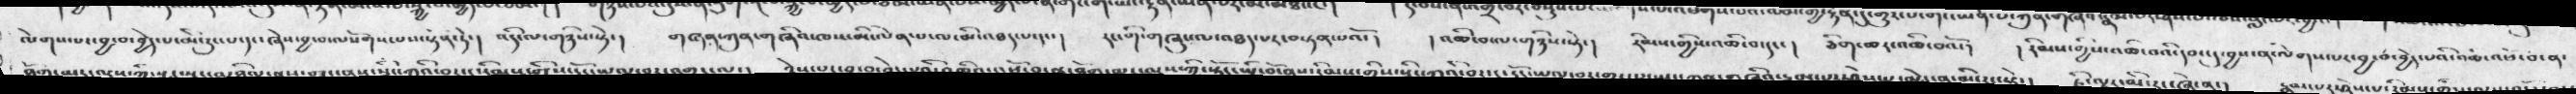ལེགས་པར་བྱ་བ་བྱེད་པ་མི་རུང་པ་དང་ཞེས་བྱ་བ་ལསོགས་པས་སྟོན་ཏེ་།  འདི་ལ་གཉིས་སྟེ་།  གཞན་གཞིའ་ཁས་མི་ལེན་པ་ལ་མི་འཐད་པ་དང་།  རང་གི་གཞུང་ལ་འཐད་པར་བསྟན་པའོ་།   ། འཆི་བ་ལ་གཉིས་སྟེ་།  རིམས་གྱིས་འཆི་བ་དང་།   ཅིག་ཆར་འཆི་བའོ་།  ། རིམས་གྱིས་འཆི་བའི་དབང་དུ་བྱས་ན་ལེགས་པར་བྱ་བ་བྱེད་པའི་འཆི་འཕོ་བ་ན་
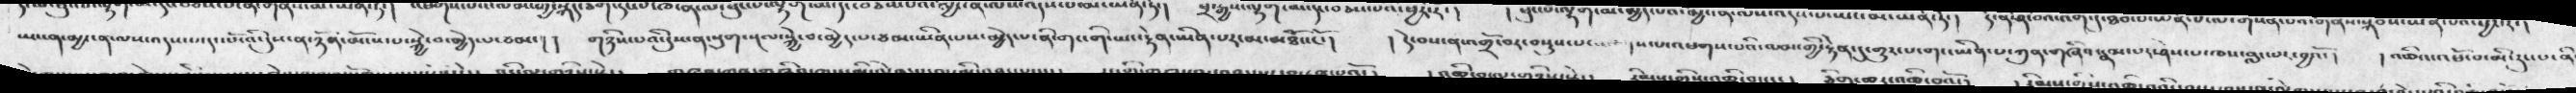ཡང་ན་མྱ་ངན་ལས་འདས་པ་དང་པོ་འི་དུས་ན་ཉོན་མོངས་པ་སྐྱེ་བ་མྱེད་པ་ཙམ་།   གཉིས་པའི་དུས་ན་སྡུག་སྔལ་སྐྱེ་བ་མྱེད་པ་ཙམ་ཡིན་པས་མྱེད་པ་ནི་གང་གི་ཡང་རྟེན་ཡིན་པར་མ་མཐོང་ང་ོ།   ། དེ་བས་ན་འགྲོ་བར་བསྡུས་པ་དང་འཕགས་པའི་ལམ་གྱི་རྟེན་དུ་གྱུར་པ་གང་ཡིན་པ་ཀུན་གཞིའ་རྣམ་པར་ཤེས་པ་ཁས་བླང་བར་བྱའོ་།  ། འཆི་འཕོ་བ་མི་རུང་པ་ནི་
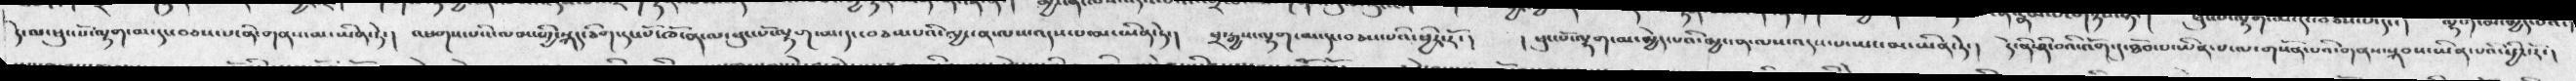་་ལ་ཕུང་པོ་ལྷག་མ་དང་བཅས་པ་ནི་གནས་མ་ཡིན་ཏེ་།  འཕགས་པའི་ལམ་གྱི་སྐད་ཅིག་དང་པོ་ཁོ་ན་ལ་ཕུང་པོ་ལྷག་མ་དང་བཅས་པའི་མྱ་ངན་ལས་འདས་པ་མ་ཡིན་ཏེ་།  ཕྲ་རྒྱས་ལྷག་མ་དང་བཅས་པའི་ཕྱིར་རོ་།   ། ཕུང་པོ་ལྷག་མ་མྱེད་པའི་མྱ་ངན་ལས་འདས་པ་ཡང་མ་ཡིན་ཏེ་།   དེ་ནི་ཤི་བའི་འོག་དུ་ཐོབ་པ་ཡིན་པ་ལ་གསོན་པའི་གནས་སྐབས་ཡིན་པའི་ཕྱིར་རོ་།
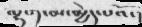ལྷ་༡་མ་མྱེད་པའོ་།
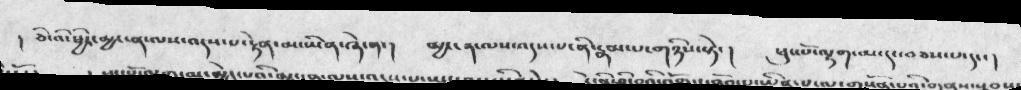། ཅི་འི་ཕྱིར་མྱ་ངན་ལས་འདས་པ་རྟེན་མ་ཡིན་ཞེ་ན་།   མྱ་ངན་ལས་འདས་པ་ནི་རྣམ་པ་གཉིས་སྟེ་།   ཕུང་པོ་ལྷག་མ་དང་བཅས་པ་དང་།
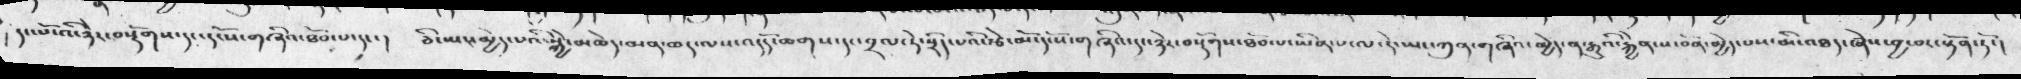། དང་པོ་འི་ཉེར་བསྡོགས་དང་དངོས་གཞིའ་ཐོབ་པ་དང་།  ཅི་ཡང་མྱེད་པའི་སྐྱེ་མཆེད་མན་ཆད་ལས་འདོད་ཆགས་དང་བྲལ་ཏེ་སྲིད་པའི་རྩེ་མོ་དངོས་གཞིའ་དང་ཉེར་བསྡོགས་ཐོབ་པ་ཡིན་པ་ལ་དེ་ཡང་ཀུན་གཞིའ་མྱེད་ན་རྒྱུའི་རྐྱེན་ས་བོན་མྱེད་པས་མི་འཐད་ཞེས་བྱ་བར་སྟོན་ཏོ་།
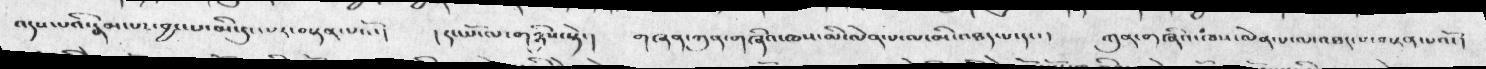འདས་པའི་རྣམ་པར་བྱང་པ་མི་དུང་པར་བསྟན་པའོ་།  ། དང་པོ་ལ་གཉིས་སྟེ་།  གཞན་ཀུན་གཞིའ་ཆས་མི་ལེན་པ་ལ་མི་འཐད་པ་དང་།  ཀུན་གཞིའ་ཁས་ལེན་པ་ལ་འཐད་པ་བསྟན་པའོ་།
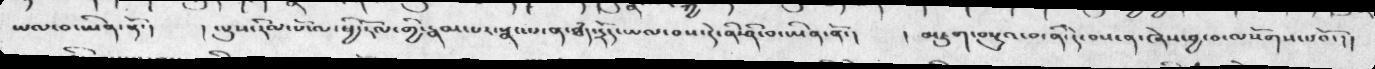ཡལ་བ་ཡིན་སྟོ་།  ། ལུས་རིམ་པོ་ལ་ཕྱི་རོལ་གྱི་རྣམ་པར་སྣང་པ་ན་ཐཾད་དྲོད་ཡལ་བས་དེ་ནི་ཤི་བ་ཡིན་ནོ་།  ། མཇུག་བསྡུའ་བ་ནི་དེ་བས་ན་ཞེས་བྱ་བ་ལསོགས་པའོ་།།
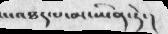ས་འཐད་པ་མ་ཡིན་ཏེ་།
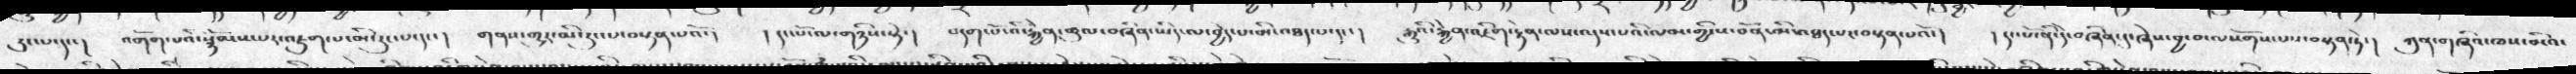རུང་པ་དང་།  འགོག་པའི་སྙོམས་པར་འཇུག་པ་མི་རུང་པ་དང་།  གནས་གྱུར་མི་རུང་པ་བསྟན་པའོ་།  ། དང་པོ་ལ་གཉིས་སྟེ་།  བདག་པོ་འི་རྐྱེན་ཚུལ་བཞིན་ཡིད་ལ་བྱེད་པ་མི་འཐད་པ་དང་།  རྒྱུའི་རྐྱེན་འཇིག་རྟེན་ལས་འདས་པའི་ལམ་གྱི་ས་བོན་མི་འཐད་པ་བསྟན་པའོ་།  ། དང་པོ་ནི་དེ་བཞིན་དུ་ཞེས་བྱ་བ་ལསོགས་པས་བསྟན་ཏེ་།  ཀུན་གཞིའ་ཁས་མིའ་
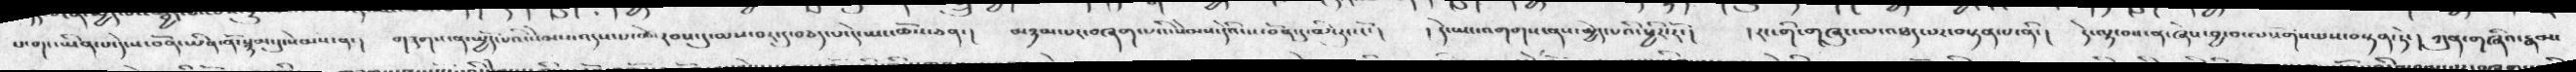པ་གང་ཡིན་པ་དེ་ས་བོན་ཡིན་ནོ་སྙམ་དུ་སེམས་ན་།  གཟུགས་ན་སྤྱོད་པའི་སེམས་་འདས་པ་ཚེ་རབས་དུ་མས་བར་དུ་བཅད་པ་དེ་ཡང་ཆོས་ཅན་།  མཉམ་པར་བཞག་པའི་སེམས་དེའི་ས་བོན་དུ་མི་རུང་ངོ་།  ། དེ་ཡང་འགགས་ནས་མྱེད་པའི་ཕྱིར་རོ་།  ། རང་གི་གཞུང་ལ་འཐད་པར་བསྟན་པ་ནི་།  དེ་ལྟ་བས་ན་ཞེས་བྱ་བ་ལསོགས་པས་བསྟན་ཏེ་།  ཀུན་གཞིའ་རྣམ་
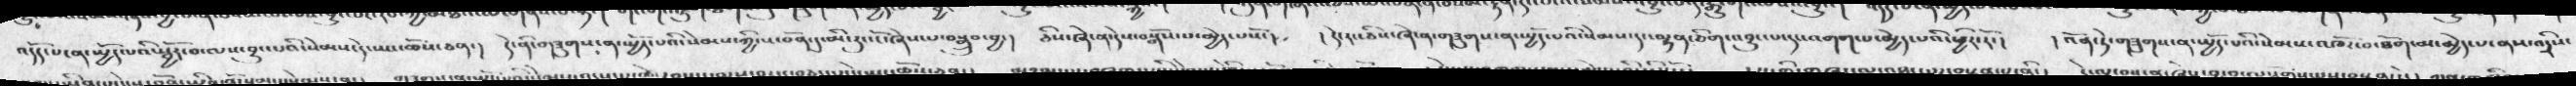འདོད་པ་ན་སྤྱོད་པའི་སྦྱོར་བ་ལས་བྱུང་པའི་སེམས་དེ་ཡང་ཆོས་ཅན་།  དེ་ནི་གཟུགས་ན་སྤྱོད་པའི་སེམས་ཀྱི་ས་བོན་དུ་མི་རུང་ངོ་ཞེས་པ་བསྒྲུབ་བྱ་།  ཅིས་ཞེ་ན་དེས་བསྒོས་པ་མྱེད་པསོ་།  ། དེ་རང་ཅིས་ཞེ་ན་གཟུགས་ན་སྤྱོད་པའི་སེམས་དང་ལྷན་ཅིག་འབྱུང་པ་དང་འགག་པ་མྱེད་པའི་ཕྱིར་རོ་།  ། འོན་ཏེ་གཟུགས་ན་སྤྱོད་པའི་སེམས་འཁོར་བ་ཐོག་མ་མྱེད་པ་ནས་འདྲིས་
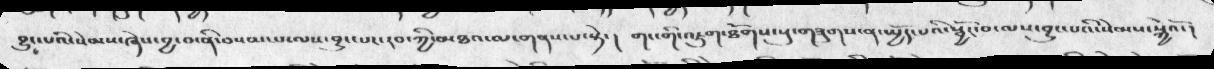བྱུང་པའི་སེམས་ཞེས་བྱ་བ་ནི་བསམ་པ་ལས་བྱུང་པར་རབ་ཀྱི་མཐའ་ལ་གནས་པ་སྟེ་།  གང་གི་འཇུག་ཐོགས་སུ་གཟུགས་ན་སྤྱོད་པའི་སྦྱོར་བ་ལས་བྱུང་པའི་སེམས་སྐྱེའོ་།
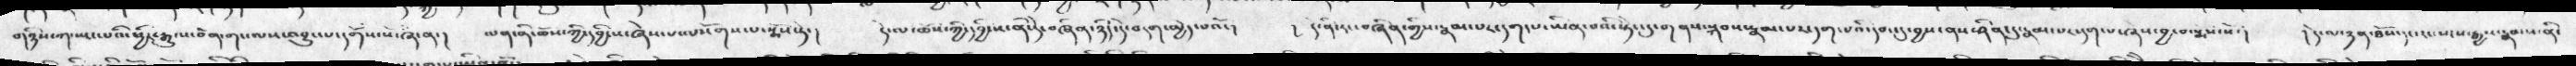གཉིས་ཀ་སྤང་པའི་ཕྱིར་རྒྱུ་ལ་ས་བོན་གང་ལས་འབྱུང་པ་དགོས་པ་ཞེ་ན་།  ལན་ནི་ཆོས་ཀྱི་དབྱིངས་ཞེས་པ་ལསོགས་པ་སྨོས་ཏེ་།  དེ་ལ་ཆོས་ཀྱི་དབྱིངས་ནི་རེ་བཞིན་ཉིད་དེ་བདག་མྱེད་པའོ་།  ། དེ་ནི་རང་བཞིན་གྱིས་རྣམ་པར་དག་པ་ཡིན་པའི་སྟེང་དུ་གནས་སྐབས་རྣམ་ར་དག་པའི་དབང་དུ་བྱས་ནས་ཤིན་དུ་རྣམ་པར་དག་པ་ཞེས་བྱ་བ་སྨོས་སོ་།  ། དེ་ལ་ཉན་ཐོས་དང་རང་སངས་རྒྱས་རྣམས་ནི་
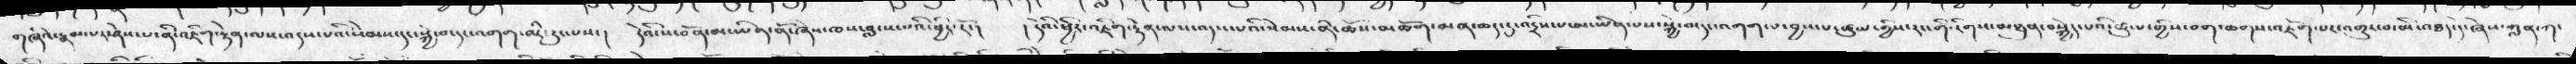གཞིའ་རྣམ་པར་ཤེས་པ་ནི་འཇིག་རྟེན་ལས་འདས་པའི་སེམས་དང་སྐྱེ་བ་དང་འགག་མི་རུང་པས་།  དེའི་ས་བོན་མ་ཡིན་ནོ་ཞེས་ཁས་བླངས་པའི་ཕྱིར་རོ་།  ། དེའི་ཕྱིར་འཇིག་རྟེན་ལས་འདས་པའི་སེམས་ནི་ཆོས་མན་ཆད་དུ་འདྲིས་པ་མ་ཡིན་པས་སྐྱེ་བ་དང་འགག་པ་བྱས་པ་ཚུལ་གྱིས་རང་གི་རིགས་མཐུན་བསྐྱེད་པའི་ཚུལ་གྱིས་བག་ཆགས་འཇོག་པར་འགྱུར་བ་མི་འཐད་དེ་ཞེས་ཀླན་ཀ་
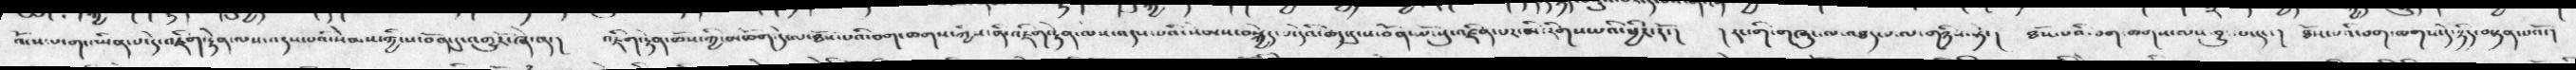ལོངས་པ་གང་ཡིན་པ་དེ་འཇིག་རྟེན་ལས་འདས་པའི་སེམས་ཀྱི་ས་བོན་དུ་འགྱུར་ཞེ་ན་།  འཇིག་རྟེན་ཆོས་ཀྱི་མཆོག་དེ་ལ་ཐོས་པའི་བག་ཆགས་ཀྱིས་ནི་འཇིག་རྟེན་ལས་འདས་པའི་སེམས་བསྐྱེད་པ་དེའི་ཆད་དུ་ས་བོན་པོ་སུ་འཛིན་པར་མི་རིགས་པའི་ཕྱིར་རོ་།  ། རང་གི་གཞུང་ལ་འཐད་པ་ལ་གཉིས་སྟེ་།   ཐོས་པའི་བག་ཆགས་ལས་བྱུང་པ་དང་།  ཐོས་པའི་བག་ཆགས་དེ་ཉིད་བསྟན་པའོ་།
